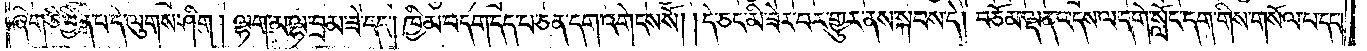ཞིག་ཅི་བྱིན་པ་དེ་ལུགས་ཤིག །ལྷག་མ་ལྷ་བྲམ་ཟེ་དང༌། ཁྱིམ་བདག་དད་པ་ཅན་དག་འགེངས་སོ། །དེ་ཅང་མི་ཟེར་བར་གྱུར་ནས་སྐབས་དེ། བཅོམ་ལྡན་འདས་ལ་དགེ་སློང་དག་གིས་གསོལ་པ་དང༌།
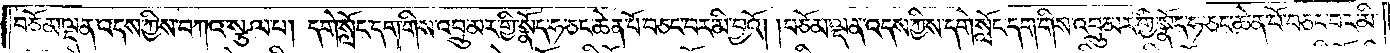བཅོམ་ལྡན་འདས་ཀྱིས་བཀའ་སྩལ་པ། དགེ་སློང་དག་གིས་འབྲུ་མར་གྱི་སྣོད་ཧ་ཅང་ཆེན་པོ་བཅང་བར་མི་བྱའོ། །བཅོམ་ལྡན་འདས་ཀྱིས་དགེ་སློང་དག་གིས་འབྲུ་མར་གྱི་སྣོད་ཧ་ཅང་ཆེན་པོ་བཅང་བར་མི་
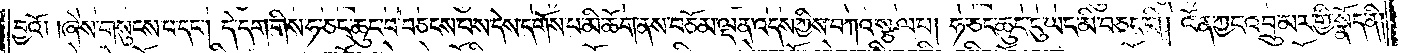བྱའོ། །ཞེས་གསུངས་པ་དང༌། དེ་དག་གིས་ཧ་ཅང་ཆུང་བ་བཅངས་པས་དེས་དགོས་པ་མི་ཆོག་ནས་བཅོམ་ལྡན་འདས་ཀྱིས་བཀའ་སྩལ་པ། ཧ་ཅང་ཆུང་ངུ་ཡང་མི་བཅང་གི། འོན་ཀྱང་འབྲུ་མར་གྱི་སྣོད་ནི།
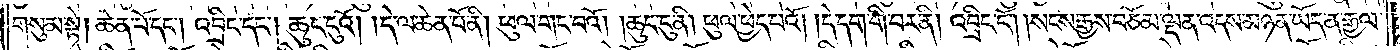གསུམ་སྟེ། ཆེན་པོ་དང༌། འབྲིང་དང༌། ཆུང་ངུའོ། །དེ་ལ་ཆེན་པོ་ནི། ཕུལ་གང་བའོ། །ཆུང་ངུ་ནི། ཕུལ་ཕྱེད་པའོ། །དེ་དག་གི་བར་ནི། འབྲིང་ངོ༌། །སངས་རྒྱས་བཅོམ་ལྡན་འདས་མཉན་ཡོད་ན་རྒྱལ་
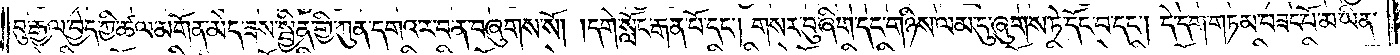བུ་རྒྱལ་བྱེད་ཀྱི་ཚལ་མགོན་མེད་ཟས་སྦྱིན་གྱི་ཀུན་དགའ་ར་བ་ན་བཞུགས་སོ། །དགེ་སློང་རྒན་པོ་དང༌། གསར་བུ་ཞིག་དང་གཉིས་ལམ་དུ་ཞུགས་ཏེ་དོང་བ་དང༌། དེ་དག་གཏམ་བཟང་པོ་མ་ཡིན་
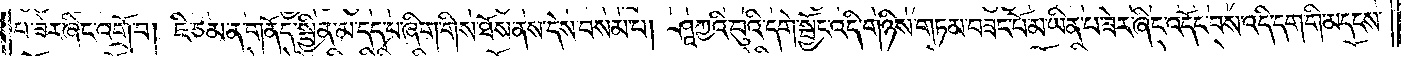པ་ཟེར་ཞིང་འགྲོ་བ། ཇི་ཙམ་ན་གནོད་སྦྱིན་མ་དད་པ་ཞིག་གིས་ཐོས་ནས་དེས་བསམ་པ། ཤཱཀྱའི་བུའི་དགེ་སྦྱོང་འདི་གཉིས་གཏམ་བཟང་པོ་མ་ཡིན་པ་ཟེར་ཞིང་འདོང་བས་འདི་དག་གི་མདངས་
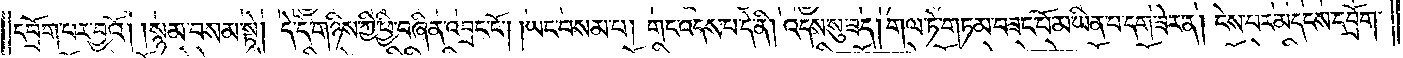དབྲོག་པར་བྱའོ། །སྙམ་བསམ་སྟེ། དེ་དེ་གཉིས་ཀྱི་ཕྱི་བཞིན་འབྲང་ངོ༌། །ཡང་བསམ་པ། གང་འདས་པ་དེ་ནི། འདས་སུ་ཟད། གལ་ཏེ་གཏམ་བཟང་པོ་མ་ཡིན་པ་དག་ཟེར་ན། ངེས་པར་མདངས་དབྲོག་
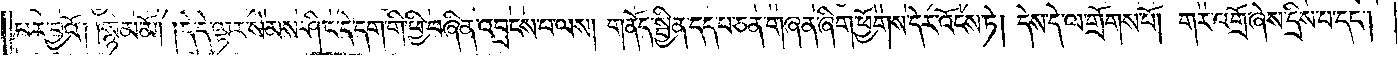པར་བྱའོ། །སྙམ་མོ། །དེ་དེ་ལྟར་སེམས་ཤིང་དེ་དག་གི་ཕྱི་བཞིན་འབྲངས་པ་ལས། གནོད་སྦྱིན་དད་པ་ཅན་གཞན་ཞིག་ཕྱོགས་དེར་འོངས་ཏེ། དེས་དེ་ལ་གྲོགས་པོ། གར་འགྲོ་ཞེས་དྲིས་པ་དང༌།
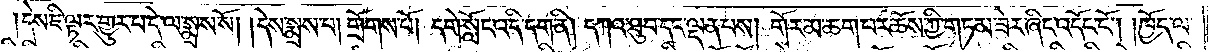དེས་ཇི་ལྟར་གྱུར་པ་དེ་ལ་སྨྲས་སོ། །དེས་སྨྲས་པ། གྲོགས་པོ། དགེ་སློང་འདི་དག་ནི། དཀའ་ཐུབ་དང་ལྡན་པས། གོར་མ་ཆག་པར་ཆོས་ཀྱི་གཏམ་ཟེར་ཞིང་འདོང་ངོ༌། །ཁྱོད་ལ་
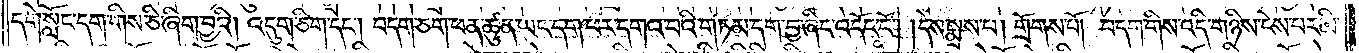དགེ་སློང་དག་གིས་ཅི་ཞིག་བྱའི། འདུག་ཅིག་དང༌། བདག་ཅག་ཕན་ཚུན་ཡང་དག་པར་དགའ་བའི་གཏམ་དག་བྱ་ཞིང་འདོང་ངོ༌། །དེས་སྨྲས་པ། གྲོགས་པོ། བདག་གིས་འདི་གཉིས་ངེས་པར་མི་
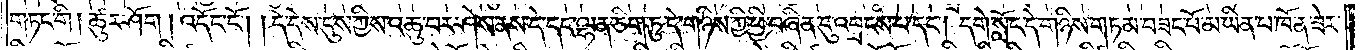གཏང་གི །ཚུར་ཤོག །འདོང་ངོ༌། །དེ་དེས་དུས་ཀྱིས་འཆུ་བར་ཤེས་ནས་དེ་དང་ལྷན་ཅིག་ཏུ་དེ་གཉིས་ཀྱི་ཕྱི་བཞིན་དུ་འབྲངས་པ་དང༌། དགེ་སློང་དེ་གཉིས་གཏམ་བཟང་པོ་མ་ཡིན་པ་ཁོ་ན་ཟེར་
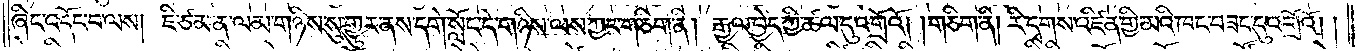ཞིང་འདོང་བ་ལས། ཇི་ཙམ་ན་ལམ་གཉིས་སུ་གྱུར་ནས་དགེ་སློང་དེ་གཉིས་ལས་ཀྱང་གཅིག་ནི། རྒྱལ་བྱེད་ཀྱི་ཚལ་དུ་འགྲོའོ། །གཅིག་ནི། རི་དྭགས་འཛིན་གྱི་མའི་ཁང་བཟང་དུ་འགྲོའོ། །
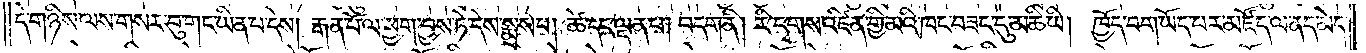དེ་གཉིས་ལས་གསར་བུ་གང་ཡིན་པ་དེས། རྒན་པོ་ལ་ཕྱག་བྱས་ཏེ་དེས་སྨྲས་པ། ཚེ་དང་ལྡན་པ། བདག་ནི། རི་དྭགས་འཛིན་གྱི་མའི་ཁང་བཟང་དུ་མཆི་ཡི། ཁྱོད་བག་ཡོད་པར་མཛོད་ལ་ནད་མེད་
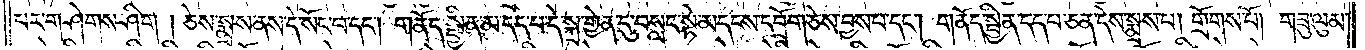པར་གཤེགས་ཤིག །ཅེས་སྨྲས་ནས་དེ་སོང་བ་དང༌། གནོད་སྦྱིན་མ་དད་པ་དེ་སྐྲ་གྱེན་དུ་བསླང་སྟེ་མདངས་དབྲོག་ཅེས་བྱས་པ་དང༌། གནོད་སྦྱིན་དད་པ་ཅན་དེས་སྨྲས་པ། གྲོགས་པོ། གཟུ་ལུམ་
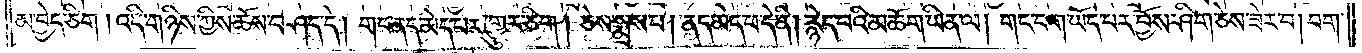མ་བྱེད་ཅིག །འདི་གཉིས་ཀྱིས་ཆོས་བཤད་དེ། གང་ནད་མེད་པར་གྱུར་ཅིག །ཅེས་སྨྲས་པ། ནད་མེད་པ་དེ་ནི། རྙེད་པའི་མཆོག་ཡིན་ལ། གང་བག་ཡོད་པར་བྱོས་ཤིག་ཅེས་ཟེར་བ། བག་
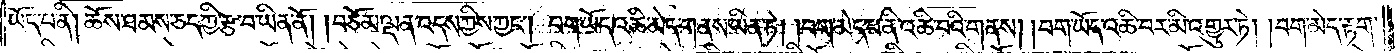ཡོད་པ་ནི། ཆོས་ཐམས་ཅད་ཀྱི་རྩ་བ་ཡིན་ནོ། །བཅོམ་ལྡན་འདས་ཀྱིས་ཀྱང༌། བག་ཡོད་འཆི་མེད་གནས་ཡིན་ཏེ། །བག་མེད་པ་ནི་འཆི་བའི་གནས། །བག་ཡོད་འཆི་བར་མི་འགྱུར་ཏེ། །བག་མེད་རྟག་
